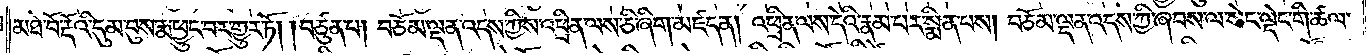མཐེ་བོ་རྡོའི་དུམ་བུས་རྨ་ཕྱུང་བར་གྱུར་ཏོ། །བཙུན་པ། བཅོམ་ལྡན་འདས་ཀྱིས་འཕྲིན་ལས་ཅི་ཞིག་མཛད་ན། འཕྲིན་ལས་དེའི་རྣམ་པར་སྨིན་པས། བཅོམ་ལྡན་འདས་ཀྱི་ཞབས་ལ་སེང་ལྡེང་གི་ཚལ་
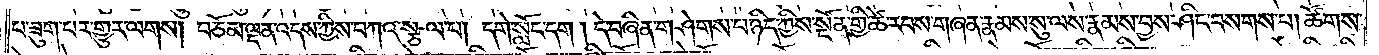པ་ཟུག་པར་གྱུར་ལགས། བཅོམ་ལྡན་འདས་ཀྱིས་བཀའ་སྩལ་པ། དགེ་སློང་དག །དེ་བཞིན་གཤེགས་པ་ཉིད་ཀྱིས་སྔོན་གྱི་ཚེ་རབས་གཞན་རྣམས་སུ་ལས་རྣམས་བྱས་ཤིང་བསགས་པ། ཚོགས་
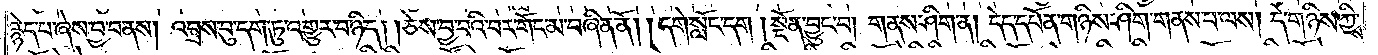རྙེད་པ་ཞེས་བྱ་བ་ནས། འབྲས་བུ་དག་ཏུ་འགྱུར་བ་ཉིད། །ཅེས་བྱ་བའི་བར་གོང་མ་བཞིན་ནོ། །དགེ་སློང་དག །སྔོན་བྱུང་བ། གནས་ཤིག་ན། དེད་དཔོན་གཉིས་ཤིག་གནས་པ་ལས། དེ་གཉིས་ཀྱིས་
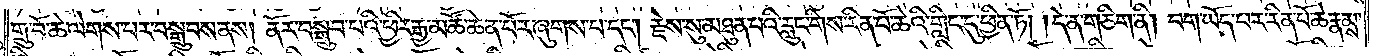གྲུ་བོ་ཆེ་ལེགས་པར་བསྒྲུབས་ནས། ནོར་བསྒྲུབ་པའི་ཕྱིར་རྒྱ་མཚོ་ཆེན་པོར་ཞུགས་པ་དང༌། རྗེས་སུ་མཐུན་པའི་རླུང་གིས་རིན་པོ་ཆེའི་གླིང་དུ་ཕྱིན་ཏོ། །དེ་ན་གཅིག་ནི། བག་ཡོད་པར་རིན་པོ་ཆེ་རྣམས་
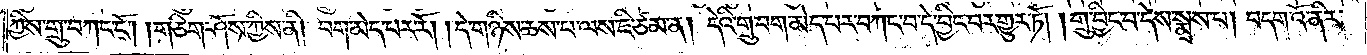ཀྱིས་གྲུ་བཀང་ངོ༌། །གཅིག་ཤོས་ཀྱིས་ནི། བག་མེད་པར་རོ། །དེ་གཉིས་ཆས་པ་ལས་ཇི་ཙམ་ན། དེའི་གྲུ་བག་མེད་པར་བཀང་བ་དེ་བྱིང་བར་གྱུར་ཏོ། །གྲུ་བྱིང་བ་དེས་སྨྲས་པ། བདག་འོ་ནིར་
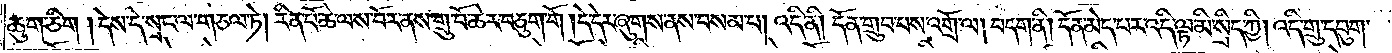ཆུག་ཅིག །དེས་དེ་སྲང་ལ་གཅལ་ཏེ། རིན་པོ་ཆེ་ལས་བོར་ནས་གྲུ་བོ་ཆེར་བཅུག་གོ །དེ་དེར་ཞུགས་ནས་བསམ་པ། འདི་ནི། དོན་གྲུབ་པས་འགྲོ་ལ། བདག་ནི། དོན་མེད་པར་འདི་ལྟ་མི་སྲིད་ཀྱི། འདི་གྲུ་དབུག་
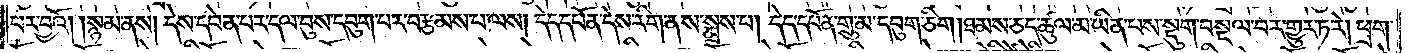པར་བྱའོ། །སྙམ་ནས། དེས་དབེན་པར་དལ་བུས་དབུག་པར་བརྩམས་པ་ལས། དེད་དཔོན་དེས་རིག་ནས་སྨྲས་པ། དེད་དཔོན་གྲུ་མ་དབུག་ཅིག །ཐམས་ཅད་ཚུལ་མ་ཡིན་པས་སྡུག་བསྔལ་བར་གྱུར་ཏ་རེ། ཕྲག་
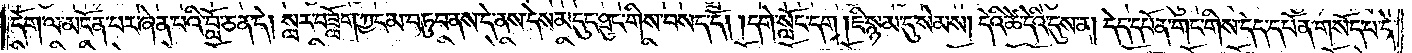དོག་ལ་མངོན་པར་ཞེན་པའི་བློ་ཅན་དེ། སླར་བཟློག་ཀྱང་མ་བཏུབ་ནས་དེ་ནས་དེས་མདུང་ཐུང་གིས་བསད་དོ། །དགེ་སློང་དག །ཇི་སྙམ་དུ་སེམས། དེའི་ཚེ་དེའི་དུས་ན། དེད་དཔོན་གང་གིས་དེད་དཔོན་གསོད་པ་དེ་
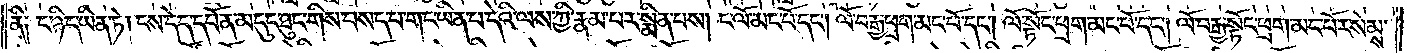ནི༑ ང་ཉིད་ཡིན་ཏེ། ངས་དེད་དཔོན་མདུང་ཐུང་གིས་བསད་པ་གང་ཡིན་པ་དེའི་ལས་ཀྱི་རྣམ་པར་སྨིན་པས། ང་ལོ་མང་པོ་དང༌། ལོ་བརྒྱ་ཕྲག་མང་པོ་དང༌། ལོ་སྟོང་ཕྲག་མང་པོ་དང༌། ལོ་བརྒྱ་སྟོང་ཕྲག་མང་པོར་སེམས་
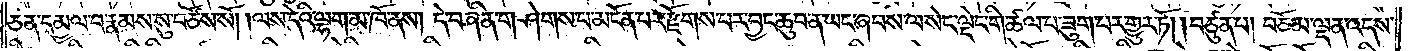ཅན་དམྱལ་བ་རྣམས་སུ་བཙོས་སོ། །ལས་དེའི་ལྷག་མ་ཁོ་ནས། དེ་བཞིན་གཤེགས་པ་མངོན་པར་རྫོགས་པར་བྱང་ཆུབ་ན་ཡང་ཞབས་ལ་སེང་ལྡེང་གི་ཚལ་པ་ཟུག་པར་གྱུར་ཏོ། །བཙུན་པ། བཅོམ་ལྡན་འདས་
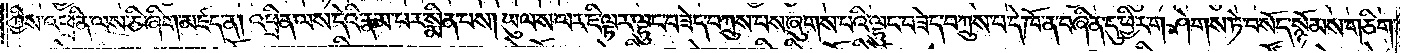ཀྱིས་འཕྲིན་ལས་ཅི་ཞིག་མཛད་ན། འཕྲིན་ལས་དེའི་རྣམ་པར་སྨིན་པས། ཡུལ་ས་ལར་ཇི་ལྟར་ལྷུང་བཟེད་པ་བཀྲུས་པས་ཞུགས་པའི་ལྷུང་བཟེད་བཀྲུས་པ་དེ་ཁོ་ན་བཞིན་དུ་ཕྱིར་གཤེགས་ཏེ་བསོད་སྙོམས་གཅིག་
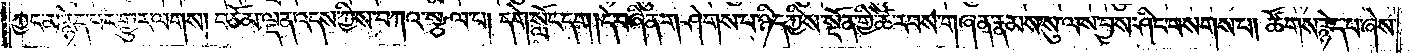ཀྱང་མ་རྙེད་པར་གྱུར་ལགས། བཅོམ་ལྡན་འདས་ཀྱིས་བཀའ་སྩལ་པ། དགེ་སློང་དག །དེ་བཞིན་གཤེགས་པ་ཉིད་ཀྱིས་སྔོན་གྱི་ཚེ་རབས་གཞན་རྣམས་སུ་ལས་བྱས་ཤིང་བསགས་པ། ཚོགས་རྙེད་པ་ཞེས་
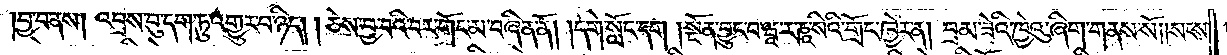བྱ་བ་ནས། འབྲས་བུ་དག་ཏུ་འགྱུར་བ་ཉིད། །ཅེས་བྱ་བའི་བར་གོང་མ་བཞིན་ནོ། །དགེ་སློང་དག །སྔོན་བྱུང་བ་ཝཱ་ར་ཎཱ་སིའི་གྲོང་ཁྱེར་ན། བྲམ་ཟེའི་ཁྱེའུ་ཞིག་གནས་སོ། །སངས་
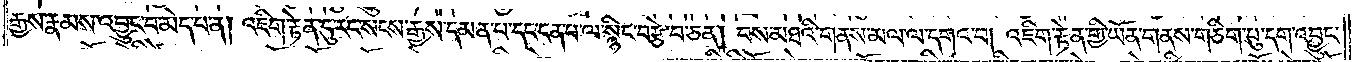རྒྱས་རྣམས་འབྱུང་བ་མེད་པ་ན། འཇིག་རྟེན་དུ་རང་སངས་རྒྱས་དམན་པ་དང་ངན་པ་ལ་སྙིང་བརྩེ་བ་ཅན། བས་མཐའི་གནས་མལ་ལ་དགའ་བ། འཇིག་རྟེན་གྱི་ཡོན་གནས་གཅིག་པུ་དག་འབྱུང་
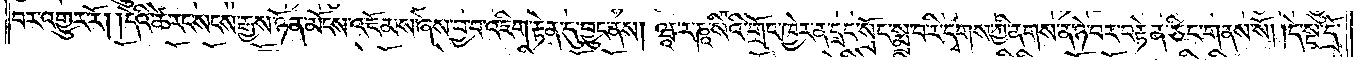བར་འགྱུར་རོ། །དེའི་ཚེ་རང་སངས་རྒྱས་ཉོན་མོངས་འཇོམས་ཞེས་བྱ་བ་འཇིག་རྟེན་དུ་བྱུང་ནས། ཝཱ་ར་ཎཱ་སིའི་གྲོང་ཁྱེར་ན་དྲང་སྲོང་སྨྲ་བ་རི་དྭགས་ཀྱི་ནགས་ན་ཉེ་བར་བརྟེན་ཅིང་གནས་སོ། །དེ་སྔ་དྲོ་
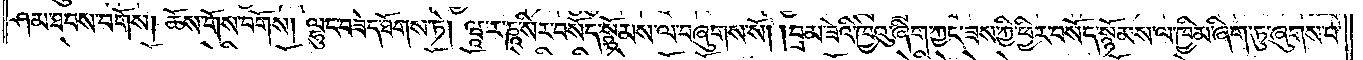ཤམ་ཐབས་བགོས། ཆོས་གོས་བགོས། ལྷུང་བཟེད་ཐོགས་ཏེ། ཝཱ་ར་ཎཱ་སིར་བསོད་སྙོམས་ལ་བཞུགས་སོ། །བྲམ་ཟེའི་ཁྱེའུ་ཞིག་ཀྱང་ཟས་ཀྱི་ཕྱིར་བསོད་སྙོམས་ལ་ཁྱིམ་ཞིག་ཏུ་ཞུགས་པ་
